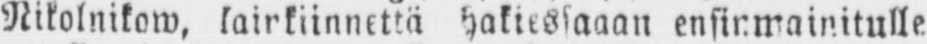Nikolnikow, lainkiinnettä hakiessaaan ensinmainitulle
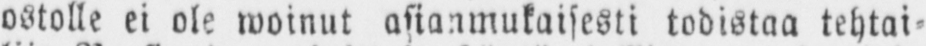ostolle ei ole woinut asianmukaisesti todistaa tehtai-
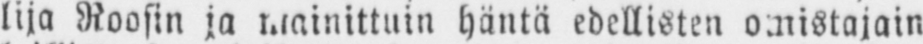lija Roosin ja mainittuin häntä edellisten omistajain
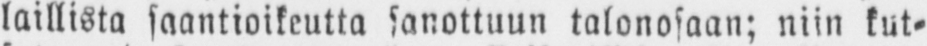laillista saantioikeutta sanottuun talonosaan; niin kut-
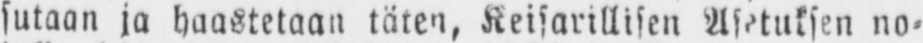sutaan ja haastetaan täten, Keisarillisen Asetuksen no-
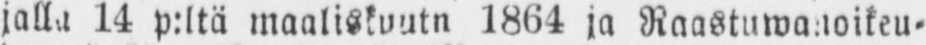jalla 14 p:ltä maaliskuutn 1864 ja Raastuwanoikeu-
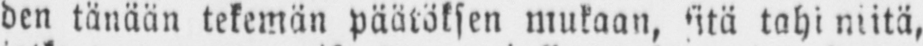den tänään tekemän päätöksen mukaan, sitä tahi niitä,
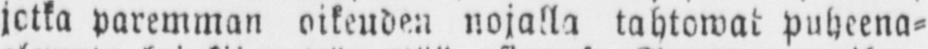jotka paremman oikeuden nojalla tahtowat puheena-
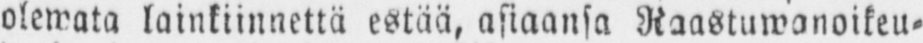olewata lainkiinnettä estää, asiaansa Raastuwanoikeu-
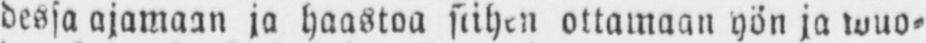dessa ajamaan ja haastaa siihen ottamaan yön ja wuo-
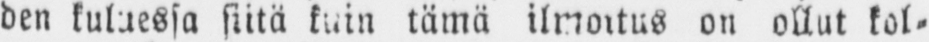den kuluessa siitä kuin tämä ilmoitus on ollut kol-
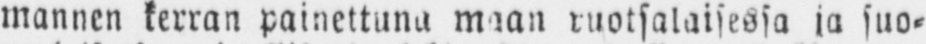mannen kerran painettuna maan ruotsalaisessa ja suo-
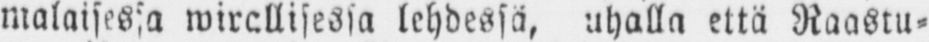malaisessa wirallisessa lehdessä, uhalla että Raastu-
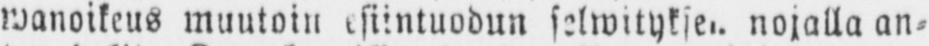wanoikeus muutoin esiintuodun selwityksen nojalla an-
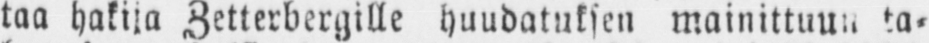taa hakija Zetterbergille huudatuksen mainittuun ta-
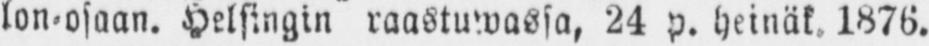lon-osaan. Helsingin raastuwassa, 24 p. heinäk, 1876.
